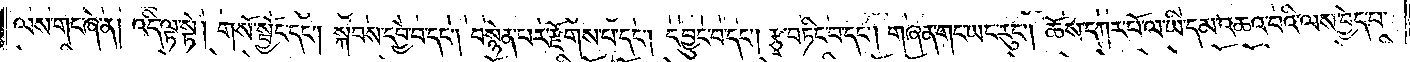ལས་གང་ཞེ་ན། འདི་ལྟ་སྟེ། གསོ་སྦྱོང་དང༌། སྐབས་དབྱེ་བ་དང༌། བསྙེན་པར་རྫོགས་པ་དང༌། དབྱུང་བ་དང༌། རྩྭ་བཏིང་བ་དང༌། གཞན་གང་ཡང་རུང༌། ཆོས་དཀར་པོ་ལ་ཡི་དམ་འཆའ་བའི་ལས་བྱེད་པ་
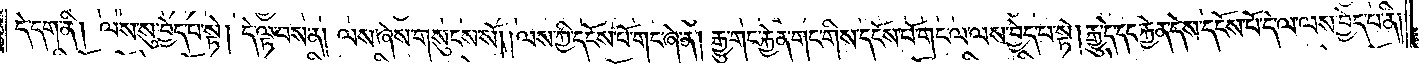དེ་དག་ནི། ལས་སུ་བྱེད་པ་སྟེ། དེ་ལྟ་བས་ན། ལས་ཞེས་གསུངས་སོ། །ལས་ཀྱི་དངོས་པོ་གང་ཞེ་ན། རྒྱུ་གང་རྐྱེན་གང་གིས་དངོས་པོ་གང་ལ་ལས་བྱེད་པ་སྟེ། རྒྱུ་དེ་དང་རྐྱེན་དེས་དངོས་པོ་དེ་ལ་ལས་བྱེད་པ་ནི།
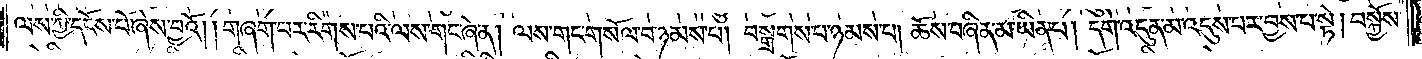ལས་ཀྱི་དངོས་པོ་ཞེས་བྱའོ། །གཞག་པར་རིགས་པའི་ལས་གང་ཞེ་ན། ལས་གང་གསོལ་བ་ཉམས་པ། བསྒྲགས་པ་ཉམས་པ། ཆོས་བཞིན་མ་ཡིན་པ། དགེ་འདུན་མ་འདུས་པར་བྱས་པ་སྟེ། བསྐྱོས་
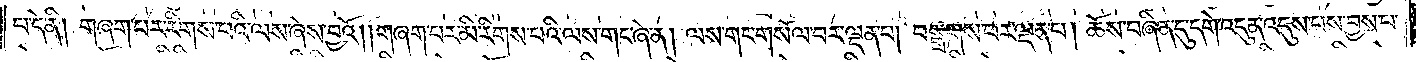པ་དེ་ནི། གཞག་པར་རིགས་པའི་ལས་ཞེས་བྱའོ། །གཞག་པར་མི་རིགས་པའི་ལས་གང་ཞེ་ན། ལས་གང་གསོལ་བར་ལྡན་པ། བསྒྲགས་པར་ལྡན་པ། ཆོས་བཞིན་དུ་དགེ་འདུན་འདུས་པས་བྱས་པ་
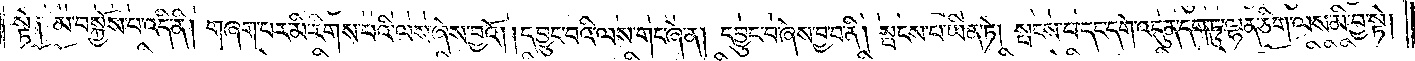སྟེ༑ མ་བསྐྱོས་པ་འདི་ནི། གཞག་པར་མི་རིགས་པའི་ལས་ཞེས་བྱའོ། །དབྱུང་བའི་ལས་གང་ཞེ་ན། དབྱུང་བ་ཞེས་བྱ་བ་ནི། སྤངས་པ་ཡིན་ཏེ། སྤངས་པ་དང་དགེ་འདུན་དག་ཏུ་ལྷན་ཅིག་ལས་མི་བྱ་སྟེ།
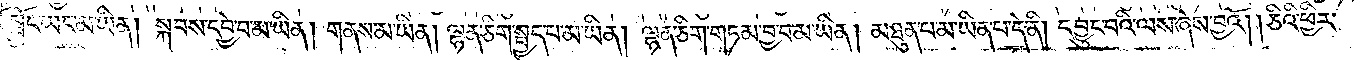སྦྱོང་ཡང་མ་ཡིན། སྐབས་དབྱེ་བ་མ་ཡིན། གནས་མ་ཡིན། ལྷན་ཅིག་སྤྱད་པ་མ་ཡིན། ལྷན་ཅིག་གཏམ་བྱ་བ་མ་ཡིན། མཐུན་པ་མ་ཡིན་པ་དེ་ནི། དབྱུང་བའི་ལས་ཞེས་བྱའོ། །ཅིའི་ཕྱིར་
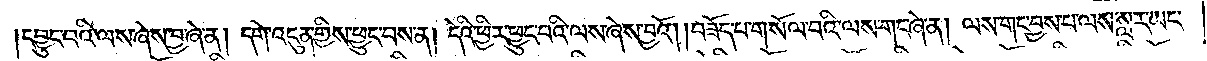དབྱུང་བའི་ལས་ཞེས་བྱ་ཞེ་ན། དགེ་འདུན་གྱིས་ཕྱུང་བས་ན། དེའི་ཕྱིར་ཕྱུང་བའི་ལས་ཞེས་བྱའོ། །བཟོད་པ་གསོལ་བའི་ལས་གང་ཞེ་ན། ལས་གང་བྱས་པ་ལས་སླར་ཡང་
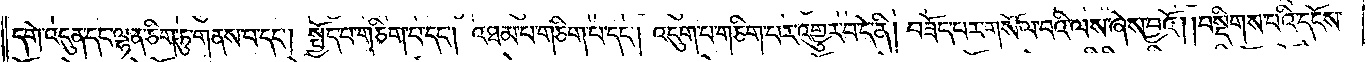དགེ་འདུན་དང་ལྷན་ཅིག་ཏུ་གནས་པ་དང༌། སྤྱོད་པ་གཅིག་པ་དང༌། འཐམ་པ་གཅིག་པ་དང༌། འདུག་པ་གཅིག་པར་འགྱུར་པ་དེ་ནི། བཟོད་པར་གསོལ་བའི་ལས་ཞེས་བྱའོ། །བསྡིགས་པའི་དངོས་
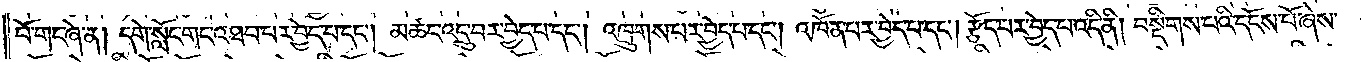པོ་གང་ཞེ་ན། དགེ་སློང་གང་འཐབ་པར་བྱེད་པ་དང༌། མཚང་འདྲུ་བར་བྱེད་པ་དང༌། འཁྲུགས་པར་བྱེད་པ་དང༌། འཁོན་པར་བྱེད་པ་དང༌། རྩོད་པར་བྱེད་པ་འདི་ནི། བསྡིགས་པའི་དངོས་པོ་ཞེས་
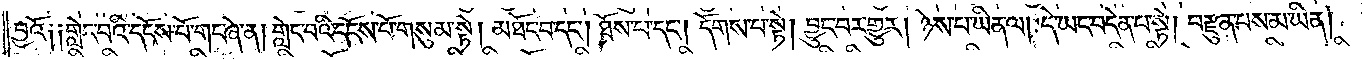བྱའོ༑ ༑གླེང་བའི་དངོས་པོ་གང་ཞེ་ན། གླེང་བའི་དངོས་པོ་གསུམ་སྟེ། མཐོང་བ་དང༌། ཐོས་པ་དང༌། དོགས་པ་སྟེ། བྱུང་བར་གྱུར། ཉེས་པ་ཡིན་ལ། དེ་ཡང་བདེན་པ་སྟེ། བརྫུན་པས་མ་ཡིན།
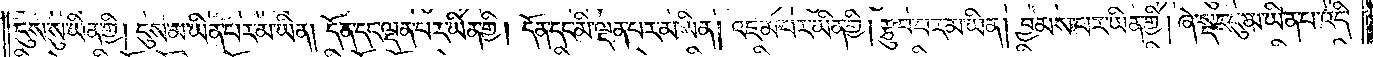དུས་སུ་ཡིན་གྱི། དུས་མ་ཡིན་པར་མ་ཡིན། དོན་དང་ལྡན་པར་ཡིན་གྱི། དོན་དང་མི་ལྡན་པར་མ་ཡིན། འཇམ་པར་ཡིན་གྱི། རྩུབ་པར་མ་ཡིན། བྱམས་པར་ཡིན་གྱི། ཞེ་སྡང་དུ་མ་ཡིན་པ་འདི་
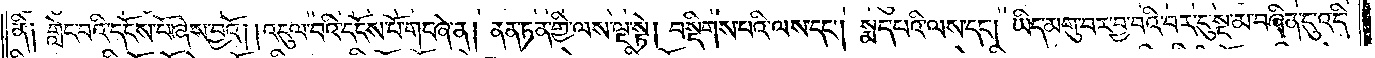ནི༑ གླེང་བའི་དངོས་པོ་ཞེས་བྱའོ། །འདུལ་བའི་དངོས་པོ་གང་ཞེ་ན། ནན་ཏན་གྱི་ལས་ལྔ་སྟེ། བསྡིགས་པའི་ལས་དང༌། སྨད་པའི་ལས་དང༌། ཡིད་མགུ་བར་བྱ་བའི་བར་དུ་སྔ་མ་བཞིན་དུ་འདི་
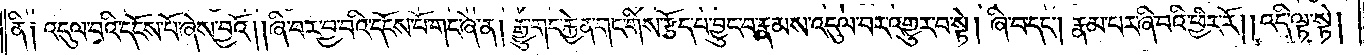ནི༑ འདུལ་བའི་དངོས་པོ་ཞེས་བྱའོ། །ཞི་བར་བྱ་བའི་དངོས་པོ་གང་ཞེ་ན། རྒྱུ་གང་རྐྱེན་གང་གིས་རྩོད་པ་བྱུང་བ་རྣམས་འདུལ་བར་འགྱུར་བ་སྟེ། ཞི་བ་དང༌། རྣམ་པར་ཞི་བའི་ཕྱིར་རོ། །འདི་ལྟ་སྟེ།
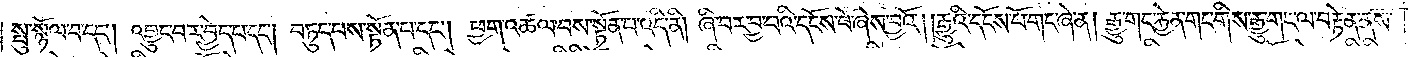སྤུ་སྙོལ་བ་དང༌། འབྱུང་བར་བྱེད་པ་དང༌། བཏུད་པས་སྟོན་པ་དང༌། ཕྱག་འཚལ་བས་སྟོན་པ་འདི་ནི། ཞི་བར་བྱ་བའི་དངོས་པོ་ཞེས་བྱའོ། །རྒྱུའི་དངོས་པོ་གང་ཞེ་ན། རྒྱུ་གང་རྐྱེན་གང་གིས་རྒྱུ་གང་ལ་བརྟེན་ནས་
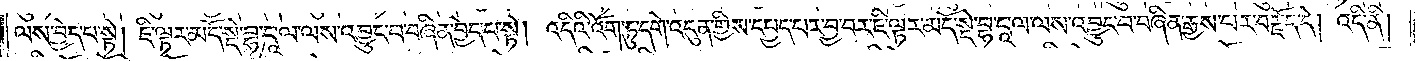ལས་བྱེད་པ་སྟེ། ཇི་ལྟར་མདོ་སྡེ་བྷ་དཱ་ལ་ལས་འབྱུང་བ་བཞིན་བྱེད་པ་སྟེ། འདིའི་འོག་ཏུ་དགེ་འདུན་གྱིས་དཔྱད་པར་བྱ་བར་ཇི་ལྟར་མདོ་སྡེ་བྷ་དཱ་ལ་ལས་འབྱུང་བ་བཞིན་རྒྱས་པར་བརྗོད་དེ། འདི་ནི།
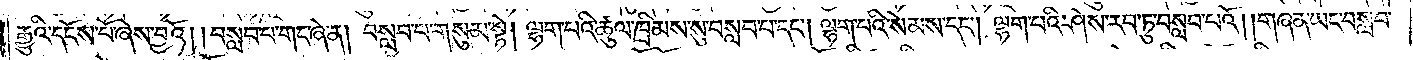རྒྱུའི་དངོས་པོ་ཞེས་བྱའོ། །བསླབ་པ་གང་ཞེ་ན། བསླབ་པ་གསུམ་སྟེ། ལྷག་པའི་ཚུལ་ཁྲིམས་སུ་བསླབ་པ་དང༌། ལྷག་པའི་སེམས་དང༌། ལྷག་པའི་ཤེས་རབ་ཏུ་བསླབ་པའོ། །གཞན་ཡང་བསླབ་
